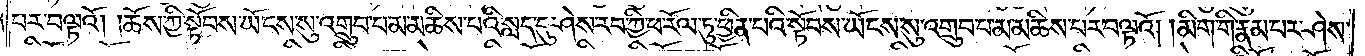པར་བལྟའོ། །ཆོས་ཀྱི་སྟོབས་ཡོངས་སུ་འགྲུབ་པ་མ་མཆིས་པའི་སླད་དུ་ཤེས་རབ་ཀྱི་ཕ་རོལ་ཏུ་ཕྱིན་པའི་སྟོབས་ཡོངས་སུ་འགྲུབ་པ་མ་མཆིས་པར་བལྟའོ། །མིག་གི་རྣམ་པར་ཤེས་
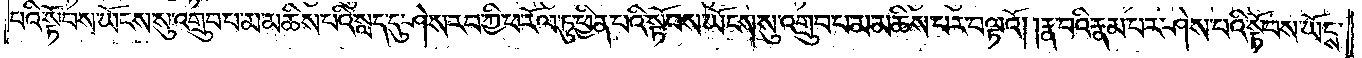པའི་སྟོབས་ཡོངས་སུ་འགྲུབ་པ་མ་མཆིས་པའི་སླད་དུ་ཤེས་རབ་ཀྱི་ཕ་རོལ་ཏུ་ཕྱིན་པའི་སྟོབས་ཡོངས་སུ་འགྲུབ་པ་མ་མཆིས་པར་བལྟའོ། །རྣ་བའི་རྣམ་པར་ཤེས་པའི་སྟོབས་ཡོངས་
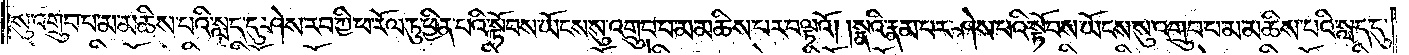སུ་འགྲུབ་པ་མ་མཆིས་པའི་སླད་དུ་ཤེས་རབ་ཀྱི་ཕ་རོལ་ཏུ་ཕྱིན་པའི་སྟོབས་ཡོངས་སུ་འགྲུབ་པ་མ་མཆིས་པར་བལྟའོ། །སྣའི་རྣམ་པར་ཤེས་པའི་སྟོབས་ཡོངས་སུ་འགྲུབ་པ་མ་མཆིས་པའི་སླད་དུ་
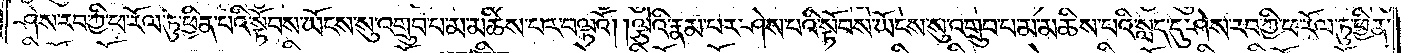ཤེས་རབ་ཀྱི་ཕ་རོལ་ཏུ་ཕྱིན་པའི་སྟོབས་ཡོངས་སུ་འགྲུབ་པ་མ་མཆིས་པར་བལྟའོ། །ལྕེའི་རྣམ་པར་ཤེས་པའི་སྟོབས་ཡོངས་སུ་འགྲུབ་པ་མ་མཆིས་པའི་སླད་དུ་ཤེས་རབ་ཀྱི་ཕ་རོལ་ཏུ་ཕྱིན་
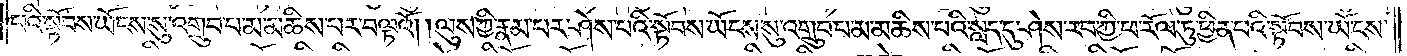པའི་སྟོབས་ཡོངས་སུ་འགྲུབ་པ་མ་མཆིས་པར་བལྟའོ། །ལུས་ཀྱི་རྣམ་པར་ཤེས་པའི་སྟོབས་ཡོངས་སུ་འགྲུབ་པ་མ་མཆིས་པའི་སླད་དུ་ཤེས་རབ་ཀྱི་ཕ་རོལ་ཏུ་ཕྱིན་པའི་སྟོབས་ཡོངས་
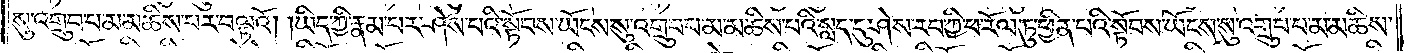སུ་འགྲུབ་པ་མ་མཆིས་པར་བལྟའོ། །ཡིད་ཀྱི་རྣམ་པར་ཤེས་པའི་སྟོབས་ཡོངས་སུ་འགྲུབ་པ་མ་མཆིས་པའི་སླད་དུ་ཤེས་རབ་ཀྱི་ཕ་རོལ་ཏུ་ཕྱིན་པའི་སྟོབས་ཡོངས་སུ་འགྲུབ་པ་མ་མཆིས་
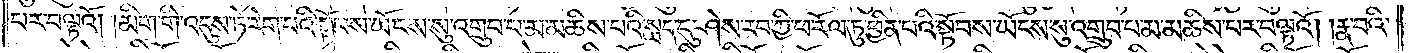པར་བལྟའོ། །མིག་གི་འདུས་ཏེ་རེག་པའི་སྟོབས་ཡོངས་སུ་འགྲུབ་པ་མ་མཆིས་པའི་སླད་དུ་ཤེས་རབ་ཀྱི་ཕ་རོལ་ཏུ་ཕྱིན་པའི་སྟོབས་ཡོངས་སུ་འགྲུབ་པ་མ་མཆིས་པར་བལྟའོ། །རྣ་བའི་
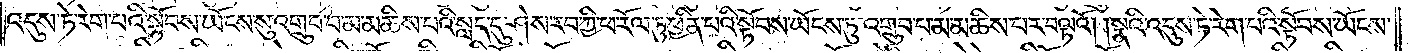འདུས་ཏེ་རེག་པའི་སྟོབས་ཡོངས་སུ་འགྲུབ་པ་མ་མཆིས་པའི་སླད་དུ་ཤེས་རབ་ཀྱི་ཕ་རོལ་ཏུ་ཕྱིན་པའི་སྟོབས་ཡོངས་སུ་འགྲུབ་པ་མ་མཆིས་པར་བལྟའོ། །སྣའི་འདུས་ཏེ་རེག་པའི་སྟོབས་ཡོངས་
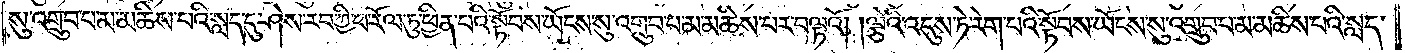སུ་འགྲུབ་པ་མ་མཆིས་པའི་སླད་དུ་ཤེས་རབ་ཀྱི་ཕ་རོལ་ཏུ་ཕྱིན་པའི་སྟོབས་ཡོངས་སུ་འགྲུབ་པ་མ་མཆིས་པར་བལྟའོ། །ལྕེའི་འདུས་ཏེ་རེག་པའི་སྟོབས་ཡོངས་སུ་འགྲུབ་པ་མ་མཆིས་པའི་སླད་
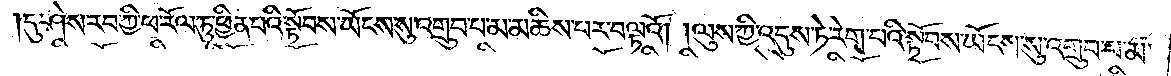དུ་ཤེས་རབ་ཀྱི་ཕ་རོལ་ཏུ་ཕྱིན་པའི་སྟོབས་ཡོངས་སུ་འགྲུབ་པ་མ་མཆིས་པར་བལྟའོ། །ལུས་ཀྱི་འདུས་ཏེ་རེག་པའི་སྟོབས་ཡོངས་སུ་འགྲུབ་པ་མ་
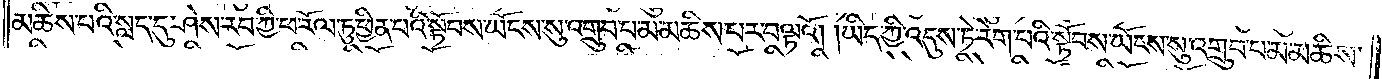མཆིས་པའི་སླད་དུ་ཤེས་རབ་ཀྱི་ཕ་རོལ་ཏུ་ཕྱིན་པའི་སྟོབས་ཡོངས་སུ་འགྲུབ་པ་མ་མཆིས་པར་བལྟའོ། །ཡིད་ཀྱི་འདུས་ཏེ་རེག་པའི་སྟོབས་ཡོངས་སུ་འགྲུབ་པ་མ་མཆིས་
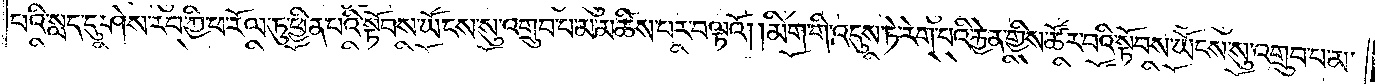པའི་སླད་དུ་ཤེས་རབ་ཀྱི་ཕ་རོལ་ཏུ་ཕྱིན་པའི་སྟོབས་ཡོངས་སུ་འགྲུབ་པ་མ་མཆིས་པར་བལྟའོ། །མིག་གི་འདུས་ཏེ་རེག་པའི་རྐྱེན་གྱིས་ཚོར་བའི་སྟོབས་ཡོངས་སུ་འགྲུབ་པ་མ་
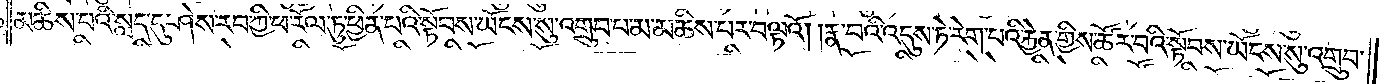མཆིས་པའི་སླད་དུ་ཤེས་རབ་ཀྱི་ཕ་རོལ་ཏུ་ཕྱིན་པའི་སྟོབས་ཡོངས་སུ་འགྲུབ་པ་མ་མཆིས་པར་བལྟའོ། །རྣ་བའི་འདུས་ཏེ་རེག་པའི་རྐྱེན་གྱིས་ཚོར་བའི་སྟོབས་ཡོངས་སུ་འགྲུབ་
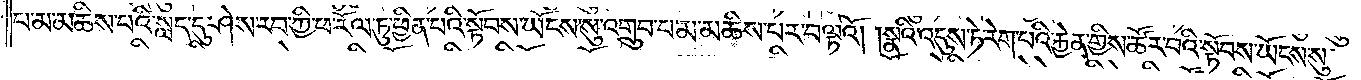པ་མ་མཆིས་པའི་སླད་དུ་ཤེས་རབ་ཀྱི་ཕ་རོལ་ཏུ་ཕྱིན་པའི་སྟོབས་ཡོངས་སུ་འགྲུབ་པ་མ་མཆིས་པར་བལྟའོ། །སྣའི་འདུས་ཏེ་རེག་པའི་རྐྱེན་གྱིས་ཚོར་བའི་སྟོབས་ཡོངས་སུ་
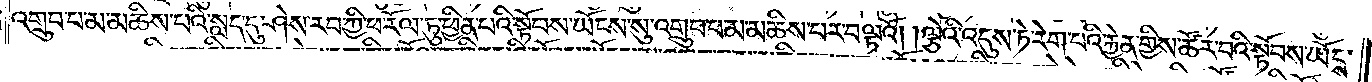འགྲུབ་པ་མ་མཆིས་པའི་སླད་དུ་ཤེས་རབ་ཀྱི་ཕ་རོལ་ཏུ་ཕྱིན་པའི་སྟོབས་ཡོངས་སུ་འགྲུབ་པ་མ་མཆིས་པར་བལྟའོ། །ལྕེའི་འདུས་ཏེ་རེག་པའི་རྐྱེན་གྱིས་ཚོར་བའི་སྟོབས་ཡོངས་
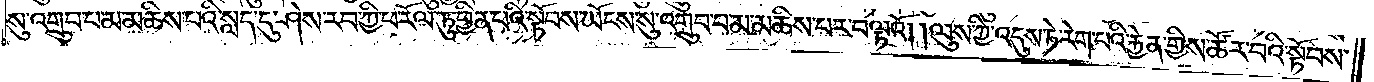སུ་འགྲུབ་པ་མ་མཆིས་པའི་སླད་དུ་ཤེས་རབ་ཀྱི་ཕ་རོལ་ཏུ་ཕྱིན་པའི་སྟོབས་ཡོངས་སུ་འགྲུབ་པ་མ་མཆིས་པར་བལྟའོ། །ལུས་ཀྱི་འདུས་ཏེ་རེག་པའི་རྐྱེན་གྱིས་ཚོར་བའི་སྟོབས་
